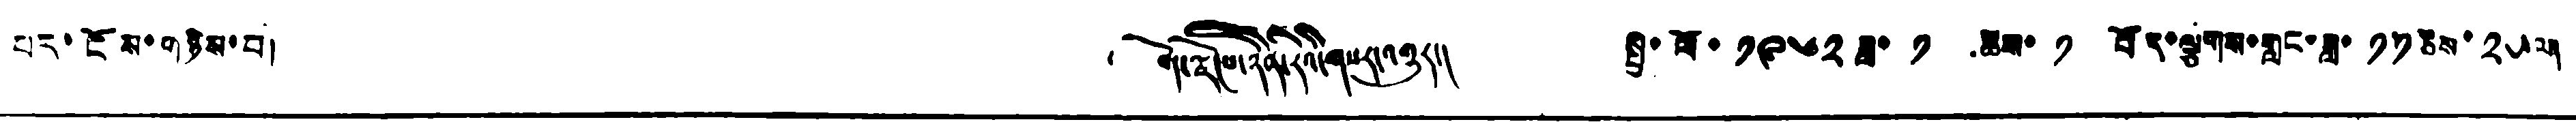པར་ངོས་གཉིས་པ། ༄ བོད་ལྗོངས་ཉིན་རེའི་གསར་འགྱུར། སྤྱི་ལོ་ ༡༩༦༢ ཟླ་ ༡ ཚེས་ ༡ བོད་ལྕགས་གླང་ཟླ་ ༡༡ཚེས་ ༢༥ལ།
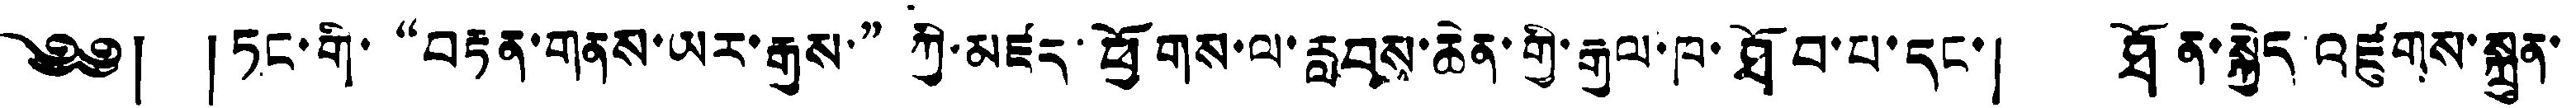༄༅། ། ཏང་གི་"བརྟན་གནས་ཡར་རྒྱས་"ཀྱི་མཛད་ཕྱོགས་ལ་རླབས་ཆེན་གྱི་རྒྱལ་ཁ་ཐོབ་པ་དང་། ཐོན་སྐྱེད འཛུགས་སྐྲུན་
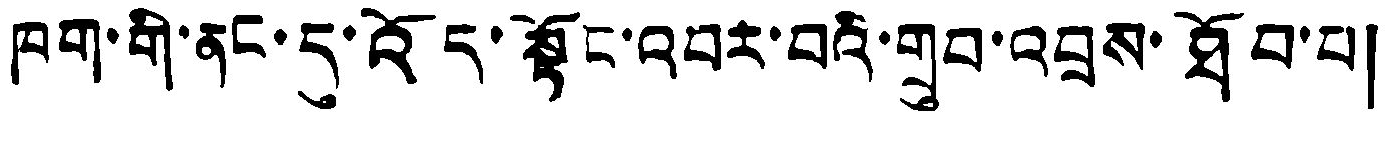ཁག་གི་ནང་དུ་འོད་སྟོང་འབར་བའི་གྲུབ་འབྲས་ཐོབ་པ།
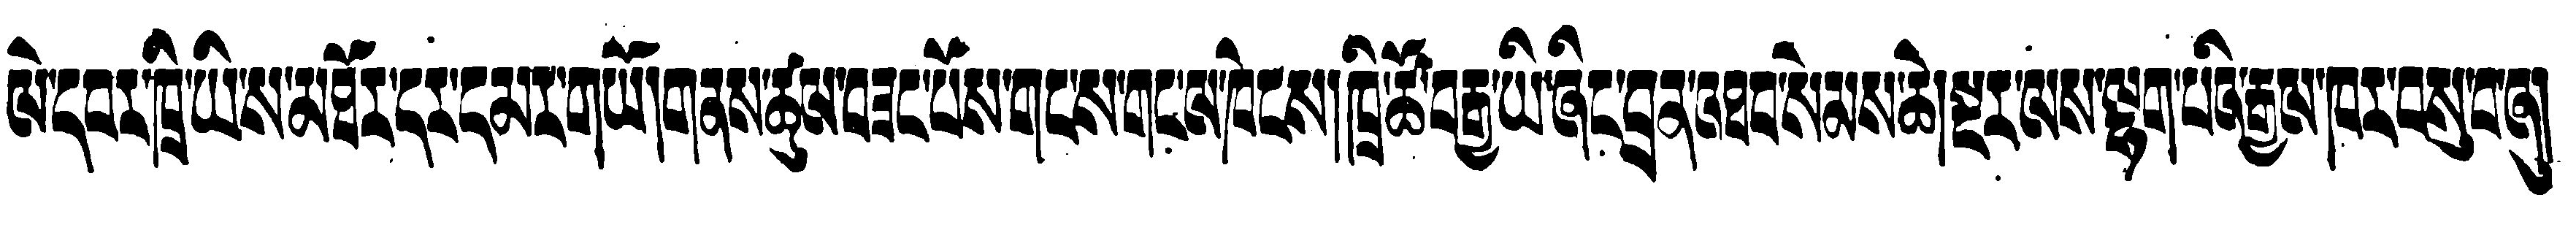ལེ་དབར་ཁྲི་ཡི་ས་མཐོར་དར་དམར་གཡོ།གནས་ཚུལ་བཟང་པོས་གང་ས་གང་ལ་ཁེངས།ཁྲི་ཚོ་བརྒྱ་ཡི་ཞིང་བྲན་འཐབ་སེམས་ཆེ།སྔར་ལས་ལྷག་པའི་རྒྱལ་ཁར་བསུ་བ་ཞུ།
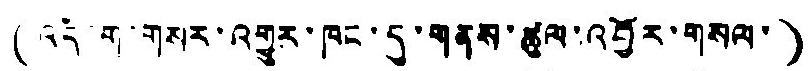( འདི་ག་གསར་འགྱུར་ཁང་དུ་གནས་ཚུལ་འབྱོར་གསལ་ )
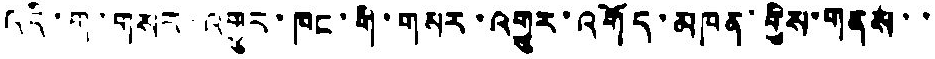འདི་ག་གསར་འགྱུར་ཁང་གི་གསར་འགྱུར་འགོད་མཁན་གྱིས་གནས་་
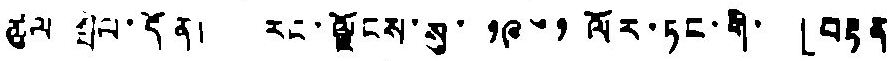ཚུལ སྤེལ་དོན། རང་ལྗོངས་སུ་ ༡༩༦༡ ལོར་ཏང་གི་ 「བརྟན
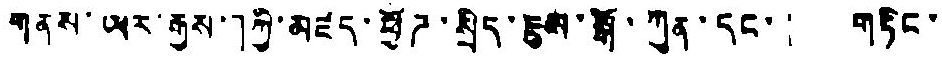གནས་ཡར་རྒྱས་」ཀྱི་མཛད་ཕྱོཌ་སྲིད་ཇུས་སྒོ་ཀུན་དང་། གཏིང་
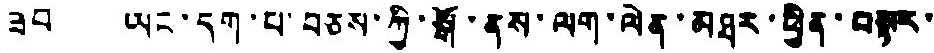ཟབ ཡང་དག་པ་བཅས་ཀྱི་སྒོ་ནས་ལག་ལེན་མཐར་ཕྱིན་བསྟར་
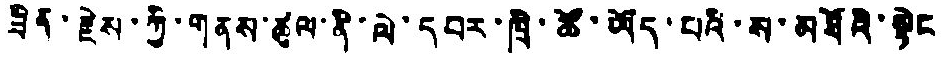ཟིན་རྗེས་ཀྱི་གནས་ཚུལ་ནི་ལེ་དབར་ཁྲི་ཚོ་ཡོད་པའི་ས་མཐོའི་སྟེང
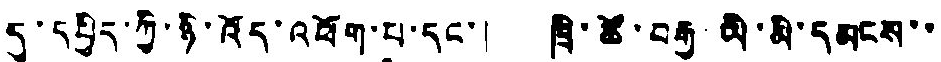དུ་དཔྱིད་ཀྱི་ཉི་འོད་འཕོག་པ་དང་། ཁྲི་ཚོ་བརྒྱ ཡི་མི་དམངས་་
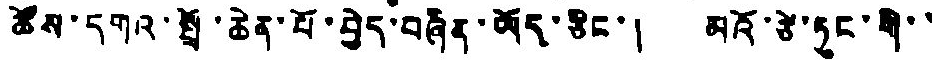ཚོས་དགའ་སྤྲོ་ཆེན་པོ་བྱེད་བཞིན་ཡོད་ཅིང་། མའོ་ཙེ་ཏུང་གི་་
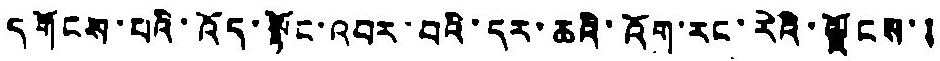དགོངས་པའི་འོད་སྟོང་འབར་བའི་དར་ཆའི་འོག་རང་རེའི་ལྗོངས་།
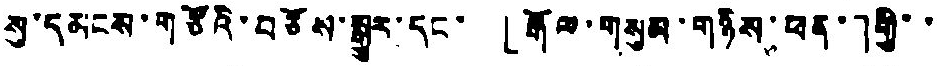སུ་དམངས་གཙོའི་བཅོས་སྒྱུར་དང་「རྒོལ་གསུམ་གཉིས་ཕན་」གྱི་་
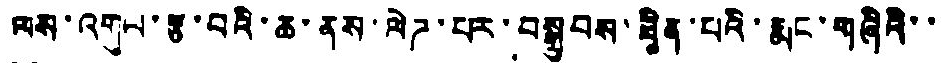ལས་འགུལ་རྩ་བའི་ཆ་ནས་ལེཌ་པར་བསྒྲུབས་ཟིན་པའི་རྨང་གཞིའི་་
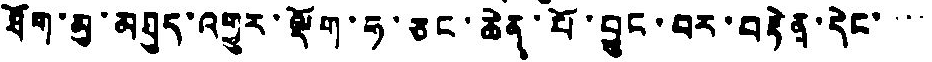ཐོག་མུ་མཐུད་འགྱུར་ལྡོག་ཧ་ཅང་ཆེན་པོ་བྱུང་བར་བརྟེན་དེང་་་་
